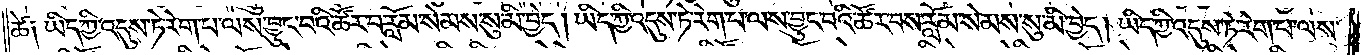ཚེ༑ ཡིད་ཀྱི་འདུས་ཏེ་རེག་པ་ལས་བྱུང་བའི་ཚོར་བ་རློམ་སེམས་སུ་མི་བྱེད། ཡིད་ཀྱི་འདུས་ཏེ་རེག་པ་ལས་བྱུང་བའི་ཚོར་བས་རློམ་སེམས་སུ་མི་བྱེད། ཡིད་ཀྱི་འདུས་ཏེ་རེག་པ་ལས་
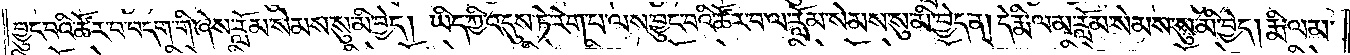བྱུང་བའི་ཚོར་བ་བདག་གི་ཞེས་རློམ་སེམས་སུ་མི་བྱེད། ཡིད་ཀྱི་འདུས་ཏེ་རེག་པ་ལས་བྱུང་བའི་ཚོར་བ་ལ་རློམ་སེམས་སུ་མི་བྱེད་ན། དེ་རྨི་ལམ་རློམ་སེམས་སུ་མི་བྱེད། རྨི་ལམ་
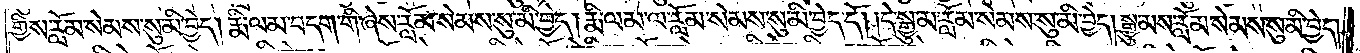གྱིས་རློམ་སེམས་སུ་མི་བྱེད། རྨི་ལམ་བདག་གི་ཞེས་རློམ་སེམས་སུ་མི་བྱེད། རྨི་ལམ་ལ་རློམ་སེམས་སུ་མི་བྱེད་དོ། །དེ་སྒྱུ་མ་རློམ་སེམས་སུ་མི་བྱེད། སྒྱུ་མས་རློམ་སེམས་སུ་མི་བྱེད།
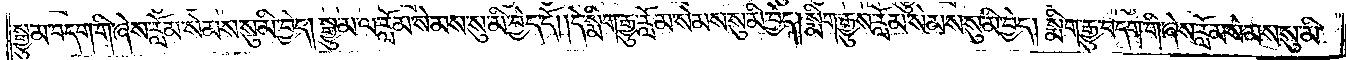སྒྱུ་མ་བདག་གི་ཞེས་རློམ་སེམས་སུ་མི་བྱེད། སྒྱུ་མ་ལ་རློམ་སེམས་སུ་མི་བྱེད་དོ། །དེ་སྨིག་རྒྱུ་རློམ་སེམས་སུ་མི་བྱེད། སྨིག་རྒྱུས་རློམ་སེམས་སུ་མི་བྱེད། སྨིག་རྒྱུ་བདག་གི་ཞེས་རློམ་སེམས་སུ་མི་
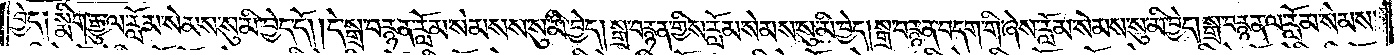བྱེད༑ སྨིག་རྒྱུ་ལ་རློམ་སེམས་སུ་མི་བྱེད་དོ། །དེ་སྒྲ་བརྙན་རློམ་སེམས་སུ་མི་བྱེད། སྒྲ་བརྙན་གྱིས་རློམ་སེམས་སུ་མི་བྱེད། སྒྲ་བརྙན་བདག་གི་ཞེས་རློམ་སེམས་སུ་མི་བྱེད། སྒྲ་བརྙན་ལ་རློམ་སེམས་
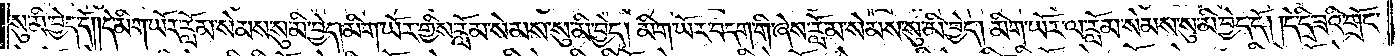སུ་མི་བྱེད་དོ། །དེ་མིག་ཡོར་རློམ་སེམས་སུ་མི་བྱེད། མིག་ཡོར་གྱིས་རློམ་སེམས་སུ་མི་བྱེད། མིག་ཡོར་བདག་གི་ཞེས་རློམ་སེམས་སུ་མི་བྱེད། མིག་ཡོར་ལ་རློམ་སེམས་སུ་མི་བྱེད་དོ། །དེ་དྲི་ཟའི་གྲོང་
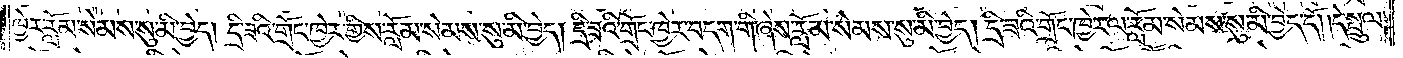ཁྱེར་རློམ་སེམས་སུ་མི་བྱེད། དྲི་ཟའི་གྲོང་ཁྱེར་གྱིས་རློམ་སེམས་སུ་མི་བྱེད། དྲི་ཟའི་གྲོང་ཁྱེར་བདག་གི་ཞེས་རློམ་སེམས་སུ་མི་བྱེད། དྲི་ཟའི་གྲོང་ཁྱེར་ལ་རློམ་སེམས་སུ་མི་བྱེད་དོ། །དེ་སྤྲུལ་
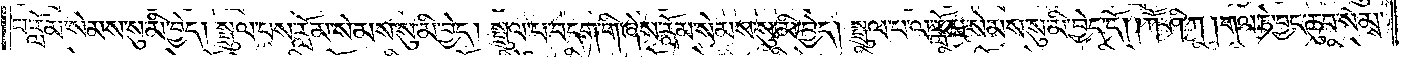པ་རློམ་སེམས་སུ་མི་བྱེད། སྤྲུལ་པས་རློམ་སེམས་སུ་མི་བྱེད། སྤྲུལ་པ་བདག་གི་ཞེས་རློམ་སེམས་སུ་མི་བྱེད། སྤྲུལ་པ་ལ་རློམ་སེམས་སུ་མི་བྱེད་དོ། །ཀཽ་ཤི་ཀ། གལ་ཏེ་བྱང་ཆུབ་སེམས་
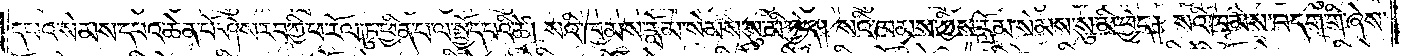དཔའ་སེམས་དཔའ་ཆེན་པོ་ཤེས་རབ་ཀྱི་ཕ་རོལ་ཏུ་ཕྱིན་པ་ལ་སྤྱོད་པའི་ཚེ། སའི་ཁམས་རློམ་སེམས་སུ་མི་བྱེད། སའི་ཁམས་ཀྱིས་རློམ་སེམས་སུ་མི་བྱེད། སའི་ཁམས་བདག་གི་ཞེས་
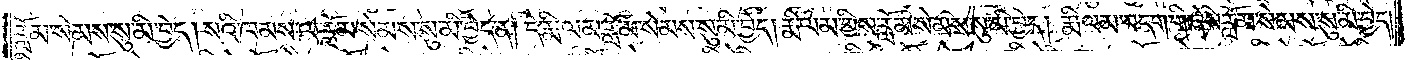རློམ་སེམས་སུ་མི་བྱེད། སའི་ཁམས་ལ་རློམ་སེམས་སུ་མི་བྱེད་ན། དེ་རྨི་ལམ་རློམ་སེམས་སུ་མི་བྱེད། རྨི་ལམ་གྱིས་རློམ་སེམས་སུ་མི་བྱེད། རྨི་ལམ་བདག་གི་ཞེས་རློམ་སེམས་སུ་མི་བྱེད།
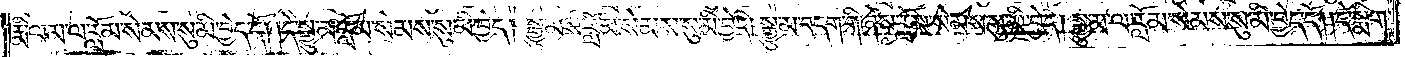རྨི་ལམ་ལ་རློམ་སེམས་སུ་མི་བྱེད་དོ། །དེ་སྒྱུ་མ་རློམ་སེམས་སུ་མི་བྱེད། སྒྱུ་མས་རློམ་སེམས་སུ་མི་བྱེད། སྒྱུ་མ་བདག་གི་ཞེས་རློམ་སེམས་སུ་མི་བྱེད། སྒྱུ་མ་ལ་རློམ་སེམས་སུ་མི་བྱེད་དོ། །དེ་སྨིག་
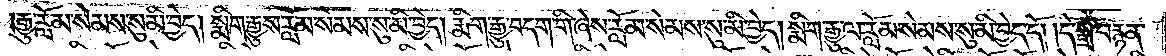རྒྱུ་རློམ་སེམས་སུ་མི་བྱེད། སྨིག་རྒྱུས་རློམ་སེམས་སུ་མི་བྱེད། སྨིག་རྒྱུ་བདག་གི་ཞེས་རློམ་སེམས་སུ་མི་བྱེད། སྨིག་རྒྱུ་ལ་རློམ་སེམས་སུ་མི་བྱེད་དོ། །དེ་སྒྲ་བརྙན་
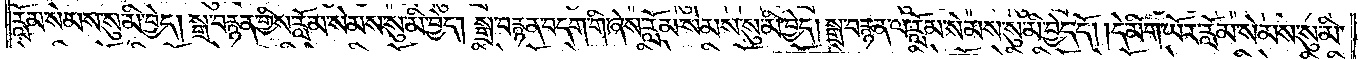རློམ་སེམས་སུ་མི་བྱེད། སྒྲ་བརྙན་གྱིས་རློམ་སེམས་སུ་མི་བྱེད། སྒྲ་བརྙན་བདག་གི་ཞེས་རློམ་སེམས་སུ་མི་བྱེད། སྒྲ་བརྙན་ལ་རློམ་སེམས་སུ་མི་བྱེད་དོ། །དེ་མིག་ཡོར་རློམ་སེམས་སུ་མི་
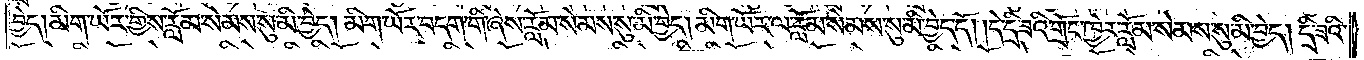བྱེད། མིག་ཡོར་གྱིས་རློམ་སེམས་སུ་མི་བྱེད། མིག་ཡོར་བདག་གི་ཞེས་རློམ་སེམས་སུ་མི་བྱེད། མིག་ཡོར་ལ་རློམ་སེམས་སུ་མི་བྱེད་དོ། །དེ་དྲི་ཟའི་གྲོང་ཁྱེར་རློམ་སེམས་སུ་མི་བྱེད། དྲི་ཟའི་
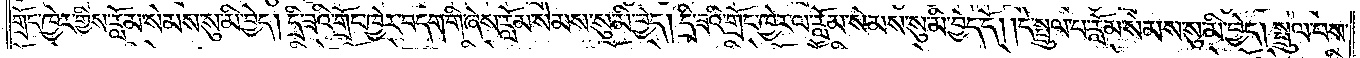གྲོང་ཁྱེར་གྱིས་རློམ་སེམས་སུ་མི་བྱེད། དྲི་ཟའི་གྲོང་ཁྱེར་བདག་གི་ཞེས་རློམ་སེམས་སུ་མི་བྱེད། དྲི་ཟའི་གྲོང་ཁྱེར་ལ་རློམ་སེམས་སུ་མི་བྱེད་དོ། །དེ་སྤྲུལ་པ་རློམ་སེམས་སུ་མི་བྱེད། སྤྲུལ་པས་
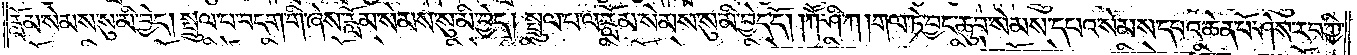རློམ་སེམས་སུ་མི་བྱེད། སྤྲུལ་པ་བདག་གི་ཞེས་རློམ་སེམས་སུ་མི་བྱེད། སྤྲུལ་པ་ལ་རློམ་སེམས་སུ་མི་བྱེད་དོ། །ཀཽ་ཤི་ཀ། གལ་ཏེ་བྱང་ཆུབ་སེམས་དཔའ་སེམས་དཔའ་ཆེན་པོ་ཤེས་རབ་ཀྱི་
